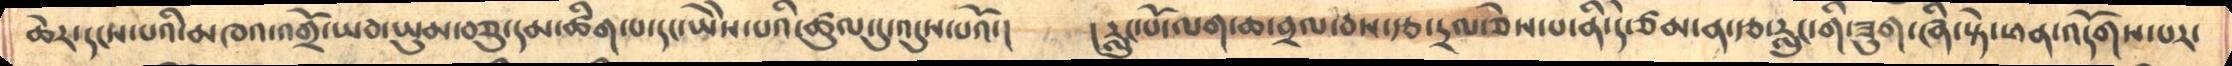ཆེར་དངས་པའི་མཁའ་འགྲོ་ཡབ་ཡུམ་བཅུ་དམ་ཚིག་པ་དང་ཡཻས་པའི་ཚུལ་དུ་འདུས་པའོ་།     །རླུང་པོ་ལག་ཆ་བྲལ་བས་རྩ་དྲལ་ཅེས་པ་ནི་དེ་ཙམ་ན་རྩ་རླུང་གི་ཟུག་ཞི་སྟེ་ཕན་འདོགས་པར་
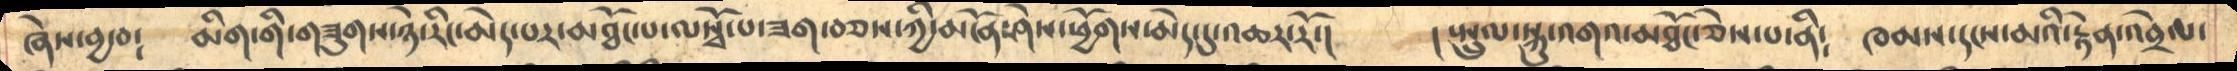ཞེས་བྱ་བ༴     མིག་གི་གཟུགས་ཉེ་རིང་མེད་པར་མཐོང་པ་ལསྭོགས་པ་ཟག་བཅས་ཀྱི་མངོན་ཤེས་ཕྱོགས་མེད་དུ་འཆར་རོ་།      ། སྤྲུལ་སྐུ་འགའ་མཐོང་ཅེས་པ་ནི༴   ཁམས་དངས་མའི་རྟེན་འབྲེལ་
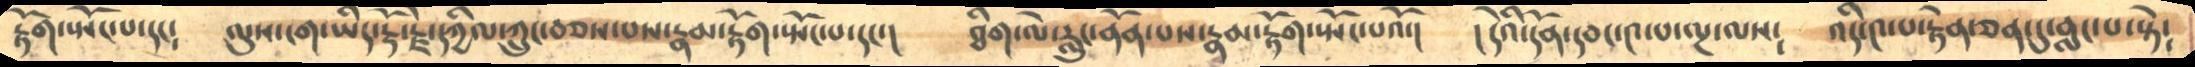རྟོག་སྤོང་པ་དང༴     ལུས་ངག་ཡིད་རྡོ་རྗེ་དཀྱིལ་ཀྲུང་བཅས་པས་རྣམ་རྟོག་སྤོང་པ་དང་།   ཐིག་ལེ་རླུང་ནོན་པས་རྣམ་རྟོག་སྤོང་པའོ་།   །དེའི་དོན་དབང་༤་པ་ལྔ་ལས༴    འདི་༤་པ་རྟེན་ཅན་དུ་བླང་པ་སྟེ༴
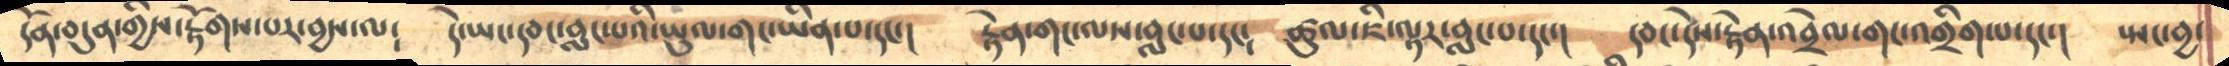དོན་བདུན་གྱིས་རྟོགས་པར་བྱས་ལ༴    དེ་ཡང་དབང་བླང་པའི་ཡུལ་གང་ཡིན་པ་དང་།    རྟེན་གང་ལས་བླང་པ་དང༴   ཚུལ་ཇི་ལྟར་བླང་པ་དང་།    དབང་དེས་རྟེན་འབྲེལ་གང་འགྲིག་པ་དང་།   སྤང་བྱ་
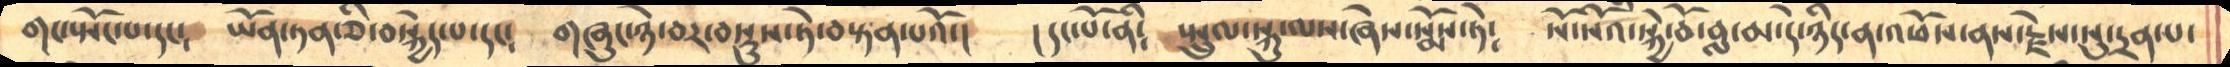གང་སྤོང་པ་དང༴     ཡོན་ཏན་ཅི་བསྐྱེད་པ་དང༴    གཞུང་ཉེ་བར་བསྡུས་ཏེ་བསྟན་པའོ་།    །དང་པོ་ནི༴  སྤྲུལ་སྐུ་ལས་ཞེས་སྨོས་ཏེ༴    སོ་སོའི་སྐྱེ་བོ་བླ་མ་དེ་ཉིད་ན་འཕོས་ནས་རྗེས་སུ་དྲན་པ་
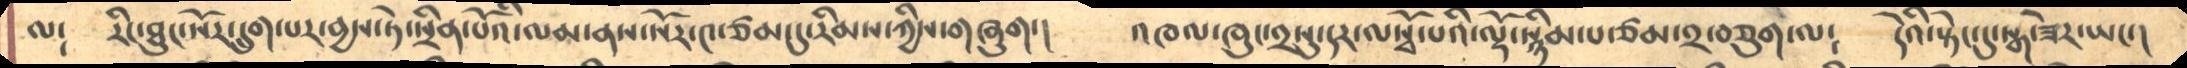ལ༴    རིང་ཐུང་སོར་དྲུག་པར་བྱས་ཏེ་སྲིན་པོའི་ལམ་ནས་སོར་༤་ཙམ་དུ་རིམས་ཀྱིས་གཞུག་།   འཁལ་ཁུང་༢སུ་དར་ལསྭོ་པའི་ལྟོ་སྙིམ་པ་ཙམ་༢་བཅུག་ལ༴    དེའི་སྟེང་དུ་སྒ་ཟེར་ཡང་།
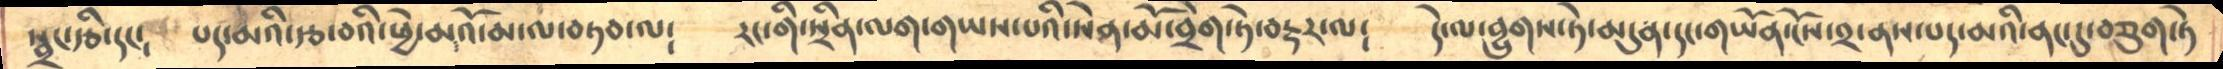སྦྲང་རྩི་དང༴     པད་མའི་རྩ་བའི་ཕྱེ་མའོ་མ་ལ་བཏབ་ལ༴    རང་གི་སྲིན་ལག་གཡས་པའི་སེན་མོ་བྲེག་ཏེ་བརྡར་ལ༴    དེ་ལ་བྱུགས་ཏེ་མདུན་དང་གཡོན་ངོས་༢་ནས་པད་མའི་ནང་དུ་བཅུག་ཏེ
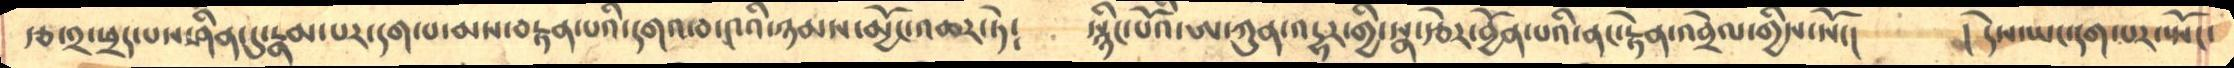རྩ་༢་ཕྲད་པས་ཤིན་དུ་རྣམ་པར་དག་པ་མས་བརྟན་པའི་དགའ་བ་༤འི་ཉམས་མྱོང་འཆར་ཏེ༴    སྙིང་པོའི་ཨ་ཀུན་འཌྷར་གྱི་སྣ་རྩེར་བྱོན་པའི་ནང་རྟེན་འབྲེལ་གྱིས་སོ་།     ། དེས་ཡང་དག་པར་སྤོང་་
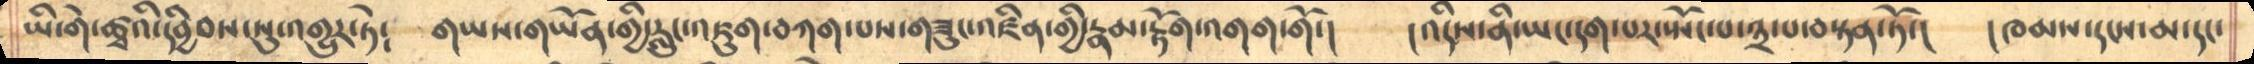ཡི་གེ་ཚྭའི་དབྱིབས་སུ་འགྱུར་ཏེ༴    གཡས་གཡོན་གྱི་རླུང་འཇུག་བཀག་པས་གཟུང་འཛིན་གྱི་རྣམ་རྟོག་འགག་གོ་།   །འདིས་ནི་ཡང་དག་པར་སྤོང་པ་༣་པ་བསྟན་ཏོ་།   །ཁམས་དངས་མ་དང་
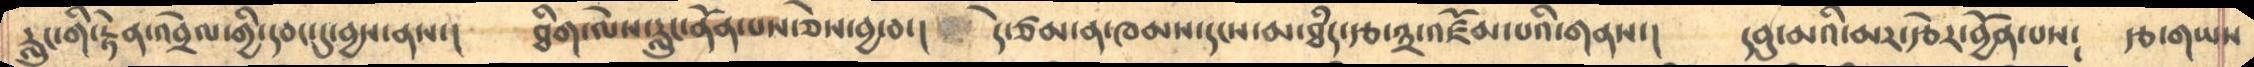རླུང་གི་རྟེན་འབྲེལ་གྱི་དབང་དུ་བྱས་ནས་།    ཐིག་ལེས་རླུང་ནོན་པས་ཅེས་བྱ་བ་།    དེ་ཙམ་ན་ཁམས་དངས་མ་ཐཾད་རྩ་༣་འཛོམ་པའི་གནས་།    དབུ་མའི་མར་རྩེར་བྱོན་པས༴    རྩ་གཡས
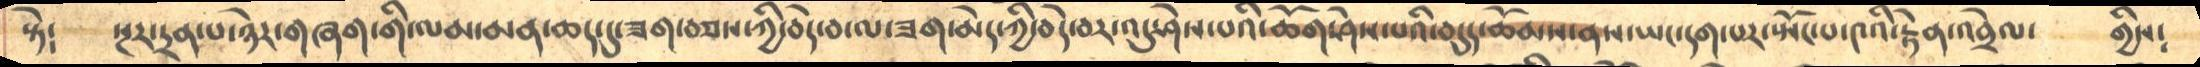སྟེ༴     སྔར་དྲན་པ་ཉེར་གཞག་གི་ལམ་མན་ཆད་དུ་ཟག་བཅས་ཀྱི་བདེ་བ་ལ་ཟག་མེད་ཀྱི་བདེ་བར་འདུ་ཤེས་པའི་ཆོག་ཤེས་པའི་བདུད་ཆོམས་ནས་ཡང་དག་པར་སྤོང་པ་༤འི་རྟེན་འབྲེལ་   གྱིས༴
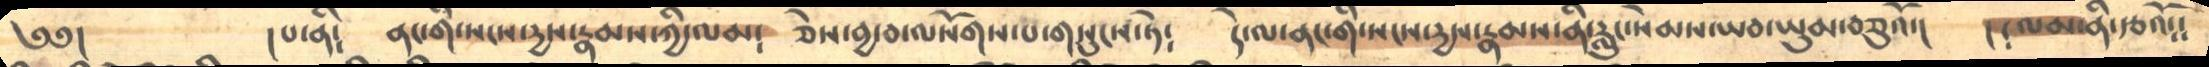༄༅།       །པ་ནི༴     ནང་གི་སངས་དྱས་རྣམས་ཀྱི་ལམ༴    ཅེས་བྱ་བ་ལསོགས་པ་གསུངས་ཏེ༴    དེ་ལ་ནང་གི་སངས་དྱས་རྣམས་ནི་རླུང་སེམས་ཡབ་ཡུམ་བཅུའོ་།    །༴ལམ་ནི་རྩའོ༴༴
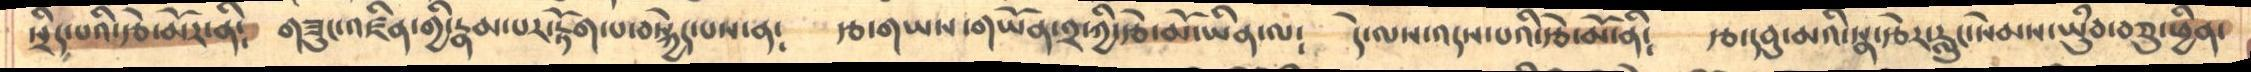སྲིད་པའི་རྩེ་མོར་ནི༴     གཟུང་འཛིན་གྱི་རྣམ་པར་རྟོག་པ་བསྐྱེད་པས་ན༴   རྩ་གཡས་གཡོན་༢་ཀྱི་རྩེ་མོ་ཡིན་ལ༴   དེ་ལས་འདས་པའི་རྩེ་མོ་ནི༴   རྩ་དབུ་མའི་སྣ་རྩེར་རླུང་སེམས་ཡུཾབ་བཅུ་ཕྱིན་
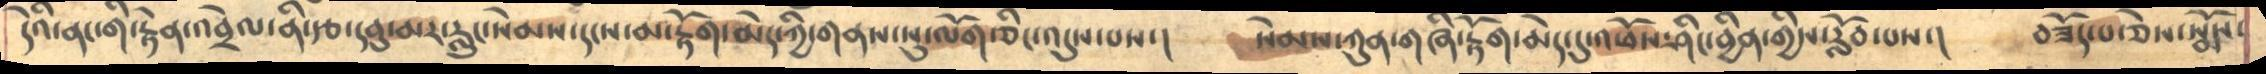དེའི་ནང་གི་རྟེན་འབྲེལ་ནི་རྩ་དབུ་མར་རླུང་སེམས་དངས་མ་རྟོག་མེད་ཀྱི་གནས་སུ་ལོག་ཅིང་འདུས་བས་།     སེམས་ཀུན་གཞི་རྟོག་མེད་དུ་འཕོས་ཤིང་བྱིན་གྱིས་རློབ་པས་།      བཟོད་པ་ཅེས་སྨོས་
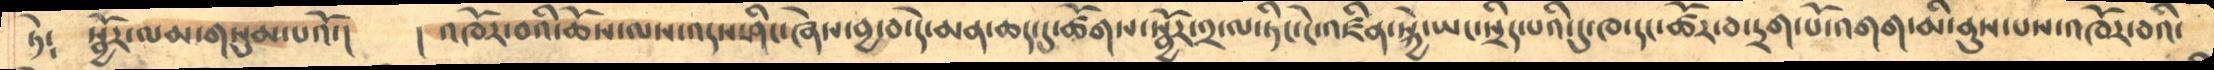ཏེ༴    སྦྱོར་ལམ་གསུམ་པའོ་།    ། འཁོར་བའི་ཆོས་ལས་འདས་ཤིང་ཞེས་བྱ་བ་དེ་མན་ཆད་དུ་ཚོགས་སྦྱོར་༢་ལ་ཏིང་ངེ་འཛིན་སྐྱེ་ཡང་སྲིད་པའི་དུ་ཁ་དང་ཚོར་བ་དྲག་པོ་འགག་མི་ནུས་པས་འཁོར་བའི་
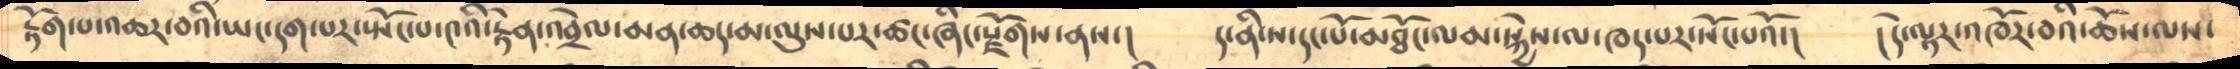རྟོག་པ་འཆར་བའི་ཡང་དག་པར་སྤོང་པ་༤འི་རྟེན་འབྲེལ་མན་ཆད་མ་ལུས་པར་ཚང་ཞིང་རྫོགས་ནས་།    ད་ནི་ས་དང་པོ་མཐོང་ལམ་སྐྱེས་ལ་ཁད་པར་སོང་པའོ་།   །དེ་ལྟར་འཁོར་བའི་ཆོས་ལས་
